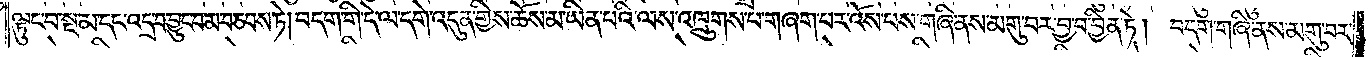ལྟུང་བ་སྔ་མ་དང་འདྲ་བ་བྱུང་བ་མ་བཅབས་ཏེ། བདག་གི་དེ་ལ་དགེ་འདུན་གྱིས་ཆོས་མ་ཡིན་པའི་ལས་འཁྲུགས་པ་གཞག་པར་འོས་པས་གཞི་ནས་མགུ་བར་བྱ་བ་བྱིན་ཏེ། བདག་གཞི་ནས་མགུ་བར་
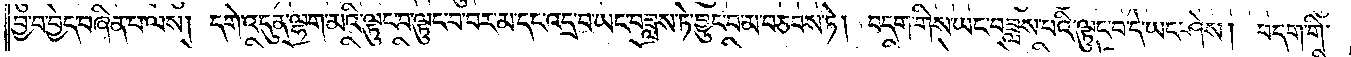བྱ་བ་བྱེད་བཞིན་པ་ལས། དགེ་འདུན་ལྷག་མའི་ལྟུང་བ་ལྟུང་བ་བར་མ་དང་འདྲ་བ་ཡང་བཟླས་ཏེ་བྱུང་བ་མ་བཅབས་ཏེ། བདག་གིས་ཡང་བཟླས་པའི་ལྟུང་བ་དེ་ཡང་ཤེས། བདག་གི་
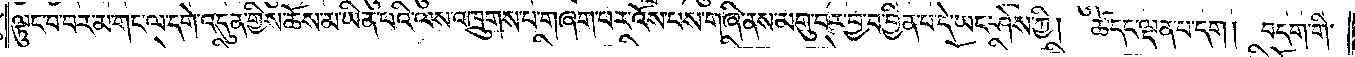ལྟུང་བ་བར་མ་གང་ལ་དགེ་འདུན་གྱིས་ཆོས་མ་ཡིན་པའི་ལས་འཁྲུགས་པ་གཞག་པར་འོས་པས་གཞི་ནས་མགུ་བར་བྱ་བ་བྱིན་པ་དེ་ཡང་ཤེས་ཀྱི།<gap>ཚེ་དང་ལྡན་པ་དག །བདག་གི་
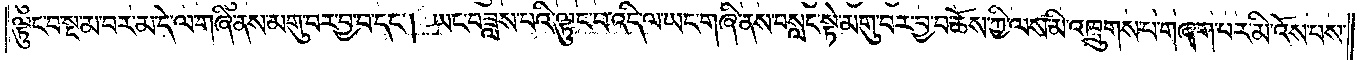ལྟུང་བ་སྔ་མ་བར་མ་དེ་ལ་གཞི་ནས་མགུ་བར་བྱ་བ་དང༌། ཡང་བཟླས་པའི་ལྟུང་བ་འདི་ལ་ཡང་གཞི་ནས་བསླང་སྟེ་མགུ་བར་བྱ་བ་ཆོས་ཀྱི་ལས་མི་འཁྲུགས་པ་གཞག་པར་མི་འོས་པས་
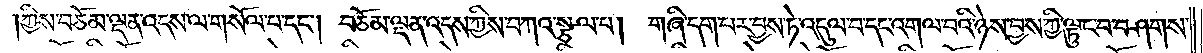ཀྱིས་བཅོམ་ལྡན་འདས་ལ་གསོལ་པ་དང༌། བཅོམ་ལྡན་འདས་ཀྱིས་བཀའ་སྩལ་པ། གཞི་དག་པར་བྱས་ཏེ་འདུལ་བ་དང་འགལ་བའི་ཉེས་བྱས་ཀྱི་ལྟུང་བ་བཤགས་
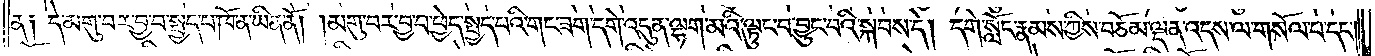ན༑ དེ་མགུ་བར་བྱ་བ་སྤྱད་པ་ཁོ་ན་ཡིན་ནོ། །མགུ་བར་བྱ་བ་ཕྱེད་སྤྱད་པའི་གང་ཟག་དགེ་འདུན་ལྷག་མའི་ལྟུང་བ་བྱུང་བའི་སྐབས་དེ། དགེ་སློང་རྣམས་ཀྱིས་བཅོམ་ལྡན་འདས་ལ་གསོལ་པ་དང༌།
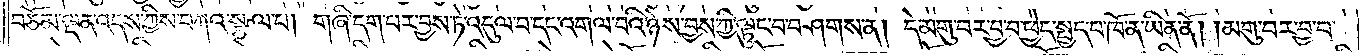བཅོམ་ལྡན་འདས་ཀྱིས་བཀའ་སྩལ་པ། གཞི་དག་པར་བྱས་ཏེ་འདུལ་བ་དང་འགལ་བའི་ཉེས་བྱས་ཀྱི་ལྟུང་བ་བཤགས་ན། དེ་མགུ་བར་བྱ་བ་ཕྱེད་སྤྱད་པ་ཁོ་ན་ཡིན་ནོ། །མགུ་བར་བྱ་བ་
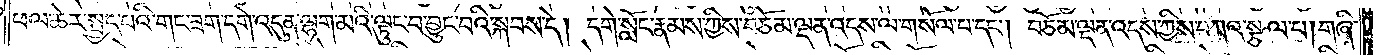ཕལ་ཆེར་སྤྱད་པའི་གང་ཟག་དགེ་འདུན་ལྷག་མའི་ལྟུང་བ་བྱུང་བའི་སྐབས་དེ། དགེ་སློང་རྣམས་ཀྱིས་བཅོམ་ལྡན་འདས་ལ་གསོལ་པ་དང༌། བཅོམ་ལྡན་འདས་ཀྱིས་བཀའ་སྩལ་པ། གཞི་
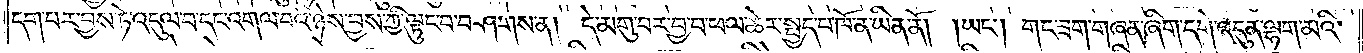དག་པར་བྱས་ཏེ་འདུལ་བ་དང་འགལ་བའི་ཉེས་བྱས་ཀྱི་ལྟུང་བ་བཤགས་ན། དེ་མགུ་བར་བྱ་བ་ཕལ་ཆེར་སྤྱད་པ་ཁོ་ན་ཡིན་ནོ། །ཡང༌། གང་ཟག་གཞན་ཞིག་དགེ་འདུན་ལྷག་མའི་
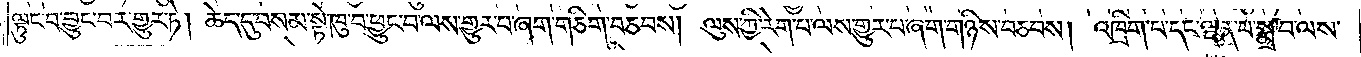ལྟུང་བ་བྱུང་བར་གྱུར་ཏེ། ཆེད་དུ་བསམ་སྟེ་ཁུ་བ་ཕྱུང་བ་ལས་གྱུར་པ་ཞག་གཅིག་བཅབས། ལུས་ཀྱི་རེག་པ་ལས་གྱུར་པ་ཞག་གཉིས་བཅབས། འཁྲིག་པ་དང་ལྡན་པ་སྨྲ་བ་ལས་
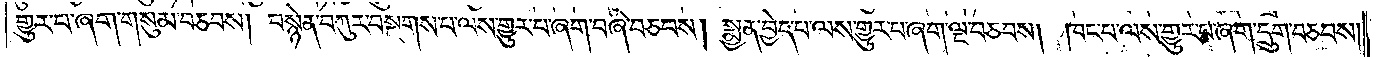གྱུར་པ་ཞག་གསུམ་བཅབས། བསྙེན་བཀུར་བསྔགས་པ་ལས་གྱུར་པ་ཞག་བཞི་བཅབས། སྨྱན་བྱེད་པ་ལས་གྱུར་པ་ཞག་ལྔ་བཅབས། ཁང་པ་ལས་གྱུར་པ་ཞག་དྲུག་བཅབས།
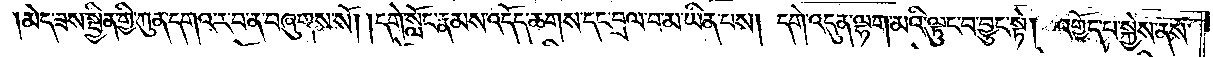མེད་ཟས་སྦྱིན་གྱི་ཀུན་དགའ་ར་བ་ན་བཞུགས་སོ། །དགེ་སློང་རྣམས་འདོད་ཆགས་དང་བྲལ་བ་མ་ཡིན་པས། དགེ་འདུན་ལྷག་མའི་ལྟུང་བ་བྱུང་སྟེ། འགྱོད་པ་སྐྱེས་ནས་
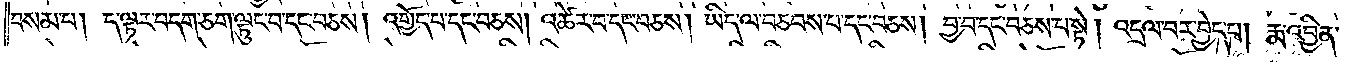བསམ་པ། ད་ལྟར་བདག་ཅག་ལྟུང་བ་དང་བཅས། འགྱོད་པ་དང་བཅས། འཚེར་བ་དང་བཅས། ཡིད་ལ་བཅབས་པ་དང་བཅས། བྱ་བ་དང་བཅས་པ་སྟེ། འདྲལ་བར་བྱེད་བ། རྨ་འབྱིན་
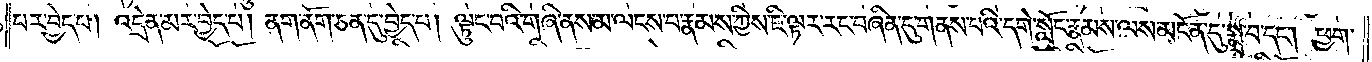པར་བྱེད་པ། འདྲེན་མར་བྱེད་པ། ནག་ནོག་ཅན་དུ་བྱེད་པ། ལྟུང་བའི་གཞི་ནས་མ་ལངས་པ་རྣམས་ཀྱིས་ཇི་ལྟར་རང་བཞིན་དུ་གནས་པའི་དགེ་སློང་རྣམས་ལས་མངོན་དུ་སྨྲ་བ་དང༌། ཕྱག་
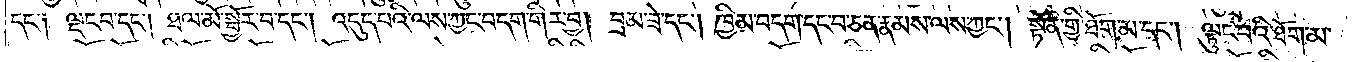དང༌། ལྡང་བ་དང༌། ཐལ་མོ་སྦྱོར་བ་དང༌། འདུད་པའི་ལས་ཀྱང་བདག་གིར་བྱ། བྲམ་ཟེ་དང༌། ཁྱིམ་བདག་དང་བ་ཅན་རྣམས་ལས་ཀྱང༌། སྟོན་གྱི་ཐོག་མ་དང༌། ལྟུང་བའི་ཐོག་མ་
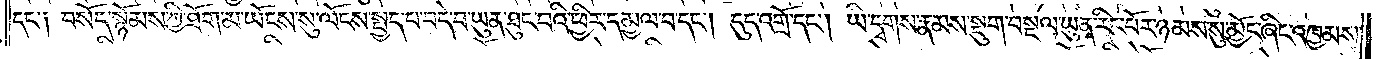དང༌། བསོད་སྙོམས་ཀྱི་ཐོག་མ་ཡོངས་སུ་ལོངས་སྤྱད་པ་བདེ་བ་ཡུན་ཐུང་བའི་ཕྱིར་དམྱལ་པ་དང༌། དུད་འགྲོ་དང༌། ཡི་དྭགས་རྣམས་སྡུག་བསྔལ་ཡུན་རིང་པོར་ཉམས་སུ་མྱོང་ཞིང་འཁྱམས་
